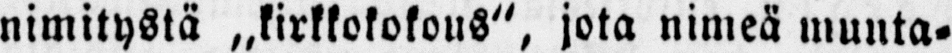nimitystä „kirkkokokous", jota nimeä munta-
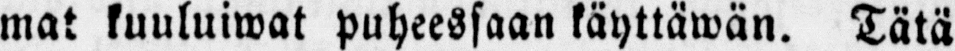mat kuuluiwat puheessaan käyttäwän. Tätä
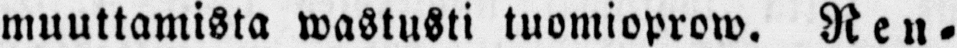muuttamista wastusti tuomioprow. Ren-
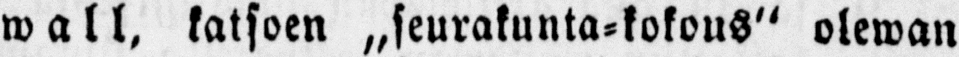wall, katsoen „seurakunta-kokous" olewan
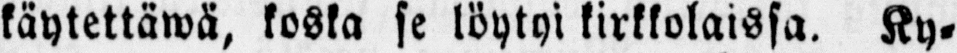käytettäwä, koska se löytyi kirkkolaissa. Ky-
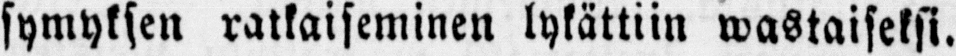symyksen ratkaiseminen lykättiin wastaiseksi.
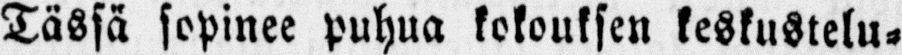Tässä sopinee puhua kokouksen keskustelu-
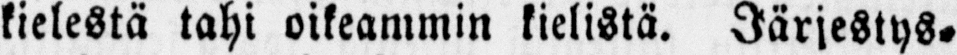kielestä tahi oikeammin kielistä. Järjestys-
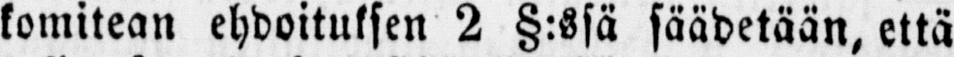komitean ehdoituksen 2 §:ssä säädetään, että
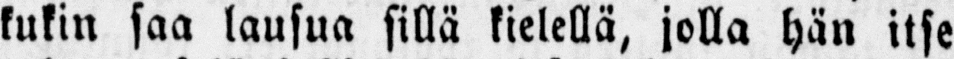kukin saa lausua sillä kielellä, jolla hän itse
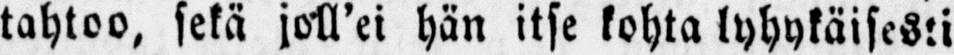tahtoo, sekä joll'ei hän itse kohta lyhykäisesti
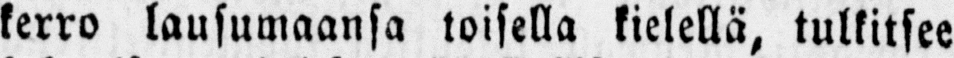kerro lausumaansa toisella kielellä, tulkitsee
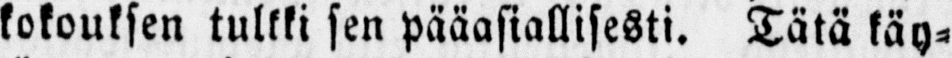kokouksen tulkki sen pääasiallisesti. Tätä käy-
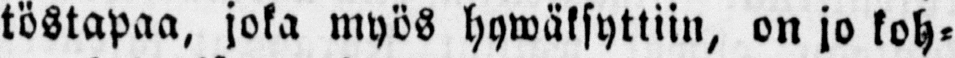töstapaa, joka myös hywäksyttiin, on jo koh-
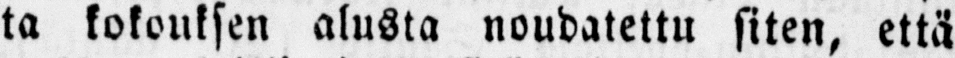ta kokouksen alusta noudatettu siten, että
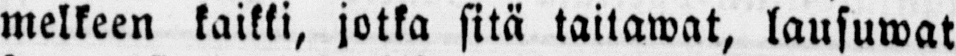melkeen kaikki, jotka sitä taitawat, lausuwat
